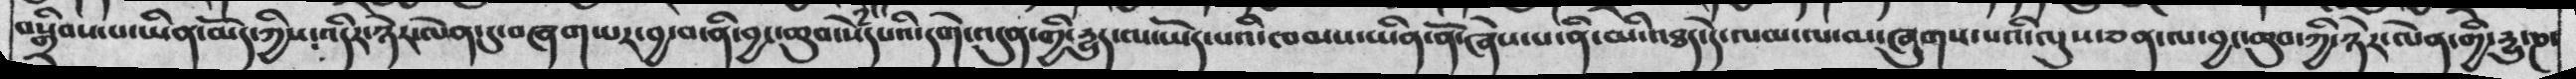བསྒྲིབས་པ་ཡིན་མོད་ཀྱིས་འདིར་ཉེར་ལེན་དུ་བཞག་པར་བྱ་བ་ནི་བྱ་ཆུབ་སེཾདཔའི་དགེ་འདུན་གྱི་རྱུད་ལ་ཡོད་པའི་ཁམས་ཡིན་ནོ་ཞེས་པ་ནི་མི་འཐད་དེ་ལམ་ལ་མ་ཞུགས་པའི་ལུས་ཅན་ལ་བྱང་ཆུབ་ཀྱི་ཉེར་ལེན་གྱི་རྱུ་ཎ་
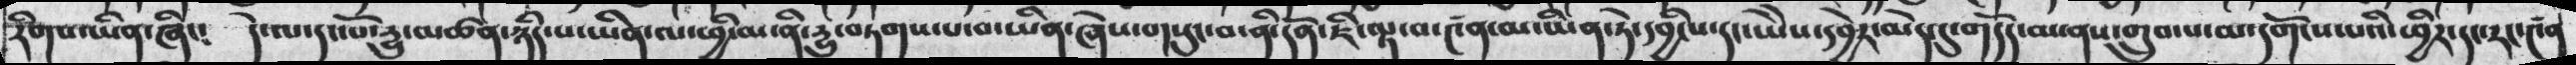རིགས་ཡིན་ཞིང་  དེ་ལ་དང་པོ་རྱུ་མཚན་ཉིད་པ་ཡིན་ལ་ཕྱི་མ་ནི་རྱུ་བཏགས་པ་བ་ཡིན་ཞེས་གསུང་བ་ནི་ཇི་ལྟ་བ་༤ན་མ་ཡིན་ཏེ་དབྱིངས་དང་ཡེེས་དབྱེར་མེད་དུ་གདོད་མ་ནས་གྲུབ་པ་མ་དགོངས་པའི་ཕྱིར་དང་རང་༤ན
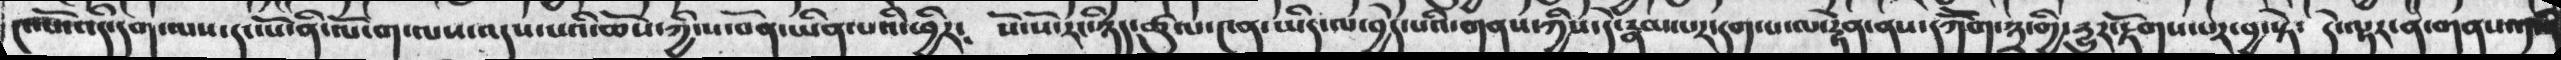༤་པོ་འདི་དག་ལས་དང་པོ་ནི་ལོ་ག་ལས་འདས་པའི་ཆོས་ཀྱི་ས་བོན་ཡིན་པའི་ཕྱིར༴   སོ་སོ་རང་ཉིད་ཚུལ་༤ན་ཡིད་ལ་བྱེད་པའི་གནས་ཀྱིས་དེ་རྣམ་པར་དག་པ་ལ་རྟེན་ནས་དཀོག་༣་གྱི་དྱུར་རྟོགས་པར་བྱ་སྟེ་  དེ་ལྟར་ན་གནས་འདས་
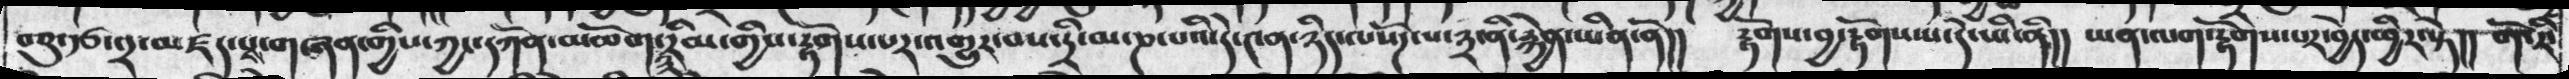བཅུ་རྩ་༢་མཛད་པས་གཞན་གྱིས་ཀྱང་དཀོན་མཆོག་༣་རིམ་གྱིས་རྟོགས་པར་འགྱུར་བས་དྲི་མ་ཎ་པའི་དེ་༤ན་ཉིད་ལསོཌ་པ་༣་ནི་རྐྱེན་ཡིན་ནོ།།  རྟོགས་བྱ་རྟོགས་པ་དེ་ཡི་ནི།།  ཡན་ལག་རྟོགས་པར་བྱེད་ཕྱིར་སྟེ།།   གོ་རི་
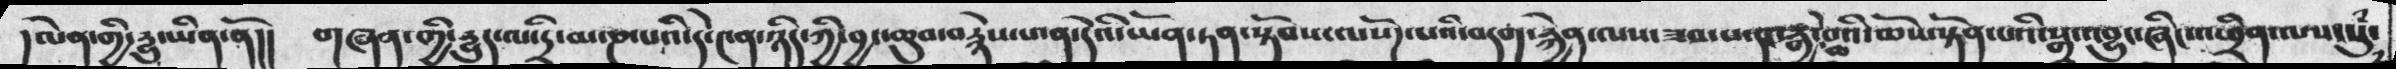།ལེན་གྱི་དྱུ་ཡིན་ནོ།།  གཞན་གྱི་དྱུད་ལ་དྲི་མ་ཎ་པའི་དེ་༤ན་ཉིད་ཀྱི་བྱང་ཆུབ་བརྙེས་པ་ན་དེའི་ཡོན་ཏན་སྟོབས་ལསོཌ་པའི་བདག་རྐྱེན་ལས་ཟབ་པ་དང་རྒྱ་ཆེ་བའི་ཆོས་སྟོན་པའི་སྒྲ་འབྱུང་ཞིང་འཕྲིན་ལས་སུཾ་
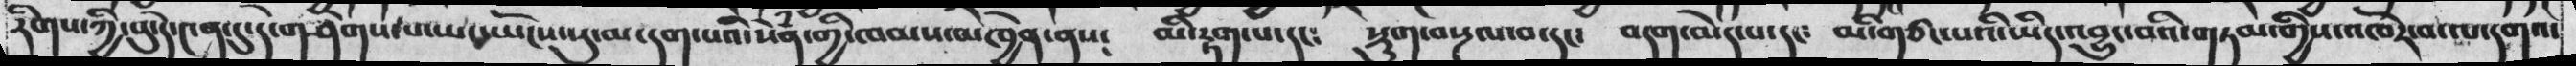རིགས་ཀྱི་བུ་དེ་༤ན་དུ་དེ་གཤེགས་པ་ཡང་ཡོངས་སུ་མ་དག་པའི་སེཾན་གྱི་ཁམས་མཁྱེན་ནས༴  མི་རྟག་པ་དང༴  སྡུག་བསྔལ་བ་དང༴  བདག་མེད་པ་དང༴ མི་གཙང་པའི་ཡིད་འབྱུང་བའི་གཏམ་གྱིས་འཁོར་བ་པ་དགའ་
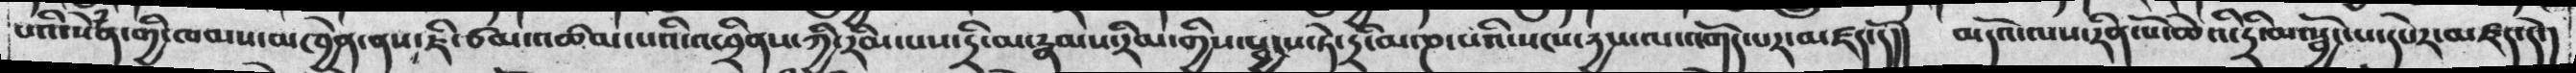པའི་སེཾན་གྱི་ཁམས་མཁྱེན་ནས་ཇི་ཙམ་འཚམ་པའི་འཕྲིནས་ཀྱི་རིམ་པས་དྲི་མ་རྣམས་རིམ་གྱིས་སྦྱངས་ཏེ་དྲི་མ་ཎ་པའི་སངས་དྱས་ལ་འགོད་པར་མཛད་དོ།།   མདོའ་ལས་རིན་པོ་ཆེའི་དྲི་མ་སྦྱོང་པ་དཔེར་མཛད་དོ་།
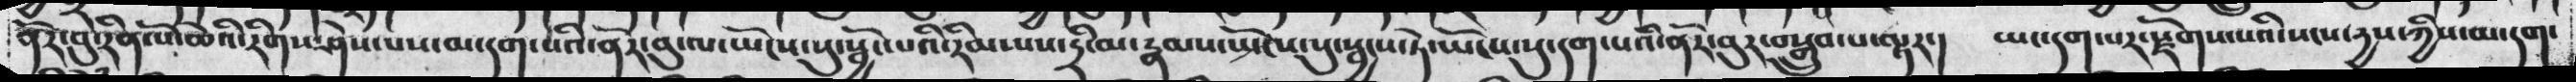ནོར་བུ་རིན་པོ་ཆེའི་རིགས་ཤེས་པས་མ་དག་པའི་ནོར་བུ་ལ་ཡོངས་སུ་སྦྱོང་པའི་རིམ་པས་དྲི་མ་རྣམས་སྤོངས་སུ་དག་པའི་ནོར་བུར་བསྒྲུབ་པ་ལྟར་།  ཡང་དག་པར་རྫོགས་པའི་སངས་དྱས་ཀྱིས་མ་དག་
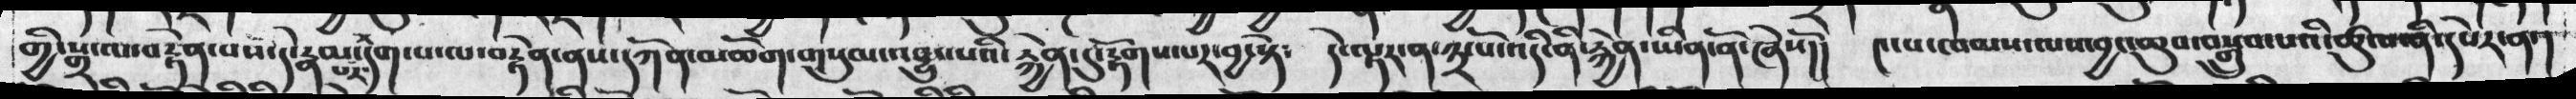གྱི་སྒྲ་ལ་བརྟེན་པས་དེ་རྣམ་པར་དག་པ་ལ་བརྟེན་ནས་དཀོན་མཆོག་གསུམ་འབྱུང་སའི་རྐྱེན་དུ་རྟོགས་པར་བྱ་སྟེ༴   དེ་ལྟར་ན་༣་པོ་འདི་ནི་རྐྱེན་ཡིན་ནོ་ཞེསོ།། ༤་པ་ཁམས་ལས་བྱང་ཆུབ་བསྒྲུབ་པའི་ཚུལ་ནི་དཔེར་ན་།
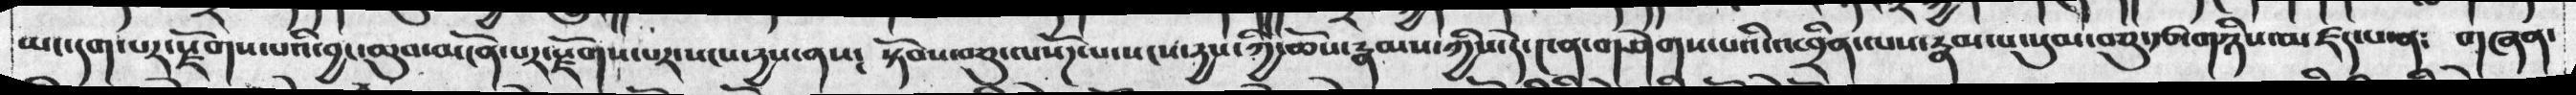མ་དག་པར་རྫོགས་པའི་བྱང་ཆུབ་མངོན་པར་རྫོགས་པར་སངས་དྱས་ནས༴  སྟོབས་བཅུ་ལསོཌ་པ་སངས་དྱས་ཀྱིས་དེ་ན་གཤེགས་པའི་འཕྲིན་ལས་རྣམ་པ་སུམ་བཅུ་རྩ་གཉིས་མཛད་པ་ན༴  གཞན་
